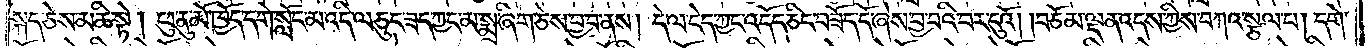སྐད་ཅེས་མཆི་སྟེ། ཕུ་ནུ་མོ་ཁྱོད་དགེ་སློང་མ་འདི་ལ་ཅུང་ཟད་ཀྱང་མ་སྨྲ་ཞིག་ཅེས་བྱ་བ་ནས། དེ་ལ་ངེད་ཀྱང་འདོད་ཅིང་བཟོད་དོ་ཞེས་བྱ་བའི་བར་དུའོ། །བཅོམ་ལྡན་འདས་ཀྱིས་བཀའ་སྩལ་པ། དགེ་
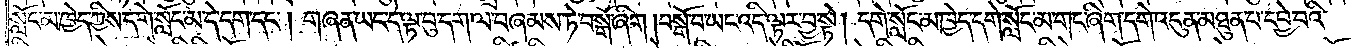སློང་མ་ཁྱེད་ཀྱིས་དགེ་སློང་མ་དེ་དག་དང༌། གཞན་ཡང་དེ་ལྟ་བུ་དག་ལ་བཞམས་ཏེ་བསྒོ་ཞིག །བསྒོ་བ་ཡང་འདི་ལྟར་བྱ་སྟེ། དགེ་སློང་མ་ཁྱེད་དགེ་སློང་མ་གང་ཞིག་དགེ་འདུན་མཐུན་པར་དབྱེ་བའི་
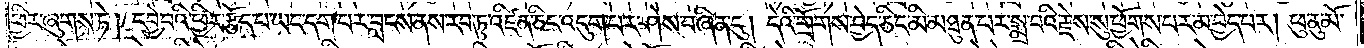ཕྱིར་ཞུགས་ཏེ། དབྱེ་བའི་ཕྱིར་རྩོད་པ་ཡང་དག་པར་བླངས་ནས་རབ་ཏུ་འཛིན་ཅིང་འདུག་པར་ཤེས་བཞིན་དུ། དེའི་གྲོགས་བྱེད་ཅིང་མི་མཐུན་པར་སྨྲ་བའི་རྗེས་སུ་ཕྱོགས་པར་མ་བྱེད་པར། ཕུ་ནུ་མོ་
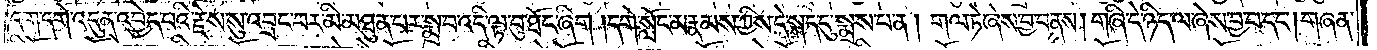དག་དགེ་འདུན་འབྱེད་པའི་རྗེས་སུ་འབྲང་བར་མི་མཐུན་པར་སྨྲ་བ་འདི་ལྟ་བུ་ཐོང་ཞིག །དགེ་སློང་མ་རྣམས་ཀྱིས་དེ་སྐད་དུ་སྨྲས་པ་ན། གལ་ཏེ་ཞེས་བྱ་བ་ནས། གཞི་དེ་ཉིད་ལ་ཞེས་བྱ་བ་དང༌། གཞན་
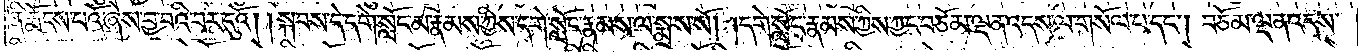ནི་རྨོངས་པའོ་ཞེས་བྱ་བའི་བར་དུའོ། །སྐབས་དེ་དགེ་སློང་མ་རྣམས་ཀྱིས་དགེ་སློང་རྣམས་ལ་སྨྲས་སོ། །དགེ་སློང་རྣམས་ཀྱིས་ཀྱང་བཅོམ་ལྡན་འདས་ལ་གསོལ་པ་དང༌། བཅོམ་ལྡན་འདས་
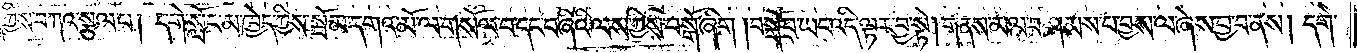ཀྱིས་བཀའ་སྩལ་པ། དགེ་སློང་མ་ཁྱེད་ཀྱིས་སྦོམ་དགའ་མོ་ལ་གསོལ་བ་དང་བཞིའི་ལས་ཀྱིས་བསྒོ་ཞིག །བསྒོ་བ་ཡང་འདི་ལྟར་བྱ་སྟེ། གནས་མལ་བཤམས་པ་བྱས་ལ་ཞེས་བྱ་བ་ནས། དགེ་
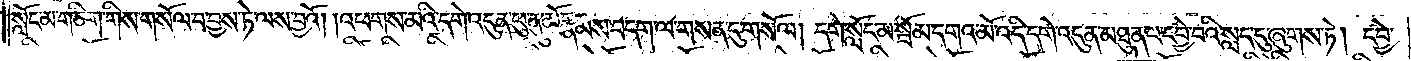སློང་མ་གཅིག་གིས་གསོལ་བ་བྱས་ཏེ་ལས་བྱའོ། །འཕགས་མའི་དགེ་འདུན་ཕུ་ནུ་མོ་རྣམས་བདག་ལ་གསན་དུ་གསོལ། དགེ་སློང་མ་སྦོམ་དགའ་མོ་འདི་དགེ་འདུན་མཐུན་པ་དབྱེ་བའི་སླད་དུ་ཞུགས་ཏེ། དབྱེ་
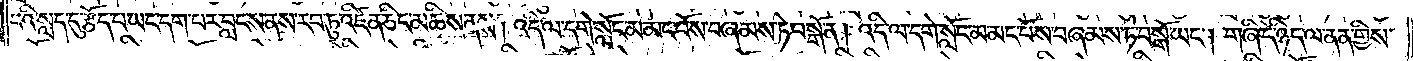བའི་སླད་དུ་རྩོད་པ་ཡང་དག་པར་བླངས་ནས་རབ་ཏུ་འཛིན་ཅིང་མཆིས་ནས། འདི་ལ་དགེ་སློང་མ་མང་པོས་བཞམས་ཏེ་བསྒོ་ན། འདི་ལ་དགེ་སློང་མ་མང་པོས་བཞམས་ཏེ་བསྒོ་ཡང༌། གཞི་དེ་ཉིད་ལ་ནན་གྱིས་
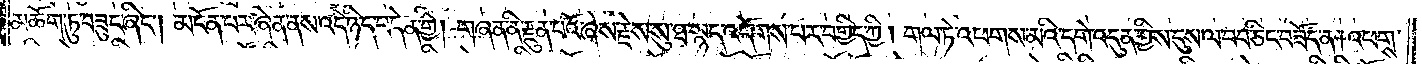མཆོག་ཏུ་བཟུང་ཞིང༌། མངོན་པར་ཞེན་ནས་འདི་ཉིད་བདེན་གྱི། གཞན་ནི་རྫུན་པའོ་ཞེས་རྗེས་སུ་ཐ་སྙད་འདོགས་པར་བགྱིད་ཀྱི། གལ་ཏེ་འཕགས་མའི་དགེ་འདུན་གྱིས་དུས་ལ་བབ་ཅིང་བཟོད་ན། འཕགས་
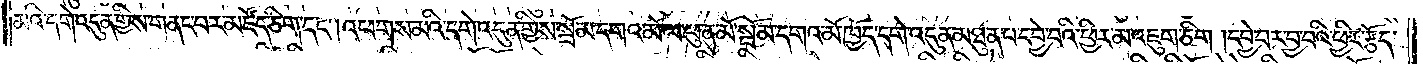མའི་དགེ་འདུན་གྱིས་གནང་བར་མཛོད་ཅིག་དང༌། འཕགས་མའི་དགེ་འདུན་གྱིས་སྦོམ་དགའ་མོ་ལ་ཕུ་ནུ་མོ་སྦོམ་དགའ་མོ་ཁྱོད་དགེ་འདུན་མཐུན་པ་དབྱེ་བའི་ཕྱིར་མ་འཇུག་ཅིག །དབྱེ་བར་བྱ་བའི་ཕྱིར་རྩོད་
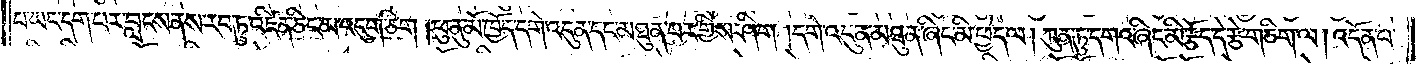པ་ཡང་དག་པར་བླངས་ནས་རབ་ཏུ་འཛིན་ཅིང་མ་འདུག་ཅིག །ཕུ་ནུ་མོ་ཁྱོད་དགེ་འདུན་དང་མཐུན་པར་གྱིས་ཤིག །དགེ་འདུན་མཐུན་ཞིང་མི་ཕྱེད་ལ། ཀུན་ཏུ་དགའ་ཞིང་མི་རྩོད་དེ་རྩེ་གཅིག་ལ། འདོན་པ་
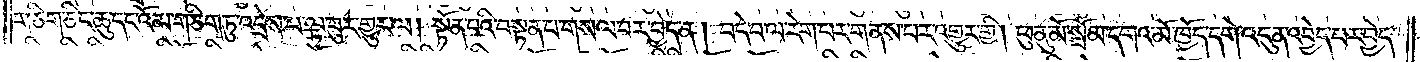གཅིག་ཅིང་ཆུ་དང་འོ་མ་གཅིག་ཏུ་འདྲེས་པ་ལྟ་བུར་གྱུར་ལ། སྟོན་པའི་བསྟན་པ་གསལ་བར་བྱེད་ན། བདེ་བ་ལ་རེག་པར་གནས་པར་འགྱུར་གྱི། ཕུ་ནུ་མོ་སྦོམ་དགའ་མོ་ཁྱོད་དགེ་འདུན་འབྱེད་པར་བྱེད་
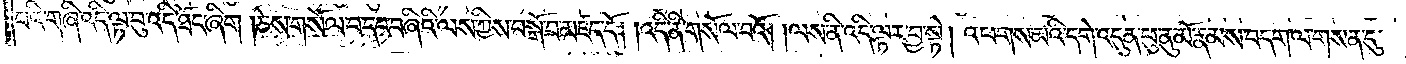པའི་གཞི་འདི་ལྟ་བུ་འདི་ཐོང་ཞིག །ཅེས་གསོལ་བ་དང་བཞིའི་ལས་ཀྱིས་བསྒོ་བ་མཛད་དོ། །འདི་ནི་གསོལ་བའོ། །ལས་ནི་འདི་ལྟར་བྱ་སྟེ། འཕགས་མའི་དགེ་འདུན་ཕུ་ནུ་མོ་རྣམས་བདག་ལ་གསན་དུ་
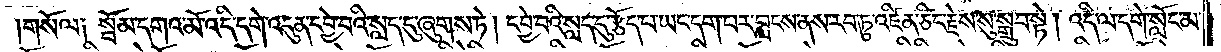གསོལ༑ སྦོམ་དགའ་མོ་འདི་དགེ་འདུན་དབྱེ་བའི་སླད་དུ་ཞུགས་ཏེ། དབྱེ་བའི་སླད་དུ་རྩོད་པ་ཡང་དག་པར་བླངས་ནས་རབ་ཏུ་འཛིན་ཅིང་རྗེས་སུ་སྒྲུབ་སྟེ། འདི་ལ་དགེ་སློང་མ་
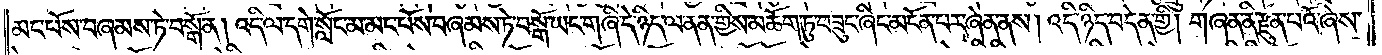མང་པོས་བཞམས་ཏེ་བསྒོ་ན། འདི་ལ་དགེ་སློང་མ་མང་པོས་བཞམས་ཏེ་བསྒོ་ཡང་གཞི་དེ་ཉིད་ལ་ནན་གྱིས་མཆོག་ཏུ་བཟུང་ཞིང་མངོན་པར་ཞེན་ནས། འདི་ཉིད་བདེན་གྱི། གཞན་ནི་རྫུན་པའོ་ཞེས་
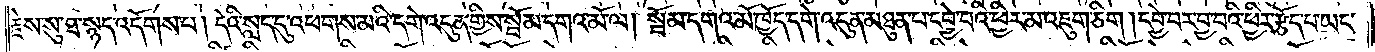རྗེས་སུ་ཐ་སྙད་འདོགས་པ། དེའི་སླད་དུ་འཕགས་མའི་དགེ་འདུན་གྱིས་སྦོམ་དགའ་མོ་ལ། སྦོམ་དགའ་མོ་ཁྱོད་དགེ་འདུན་མཐུན་པ་དབྱེ་བའི་ཕྱིར་མ་འཇུག་ཅིག །དབྱེ་བར་བྱ་བའི་ཕྱིར་རྩོད་པ་ཡང་
